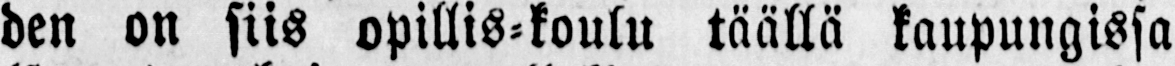den on siis opillis-koulu täällä kaupungissa
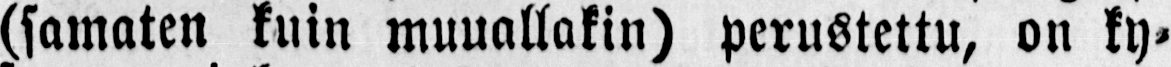(samaten kuin muuallakin) perustettu, on ky-
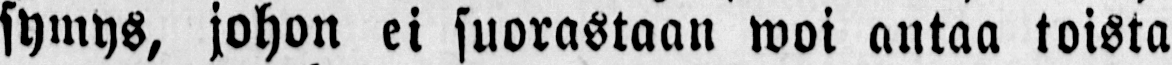symys, johon ei suorastaan woi antaa toista
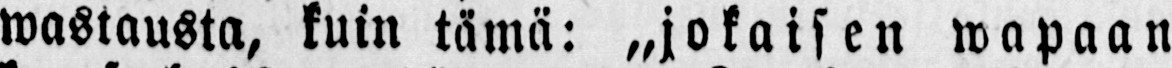mastausta, kuin tämä: „jokaisen wapaan
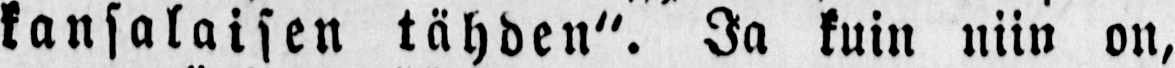kansalaisen täyden". Ja kuin niin on,
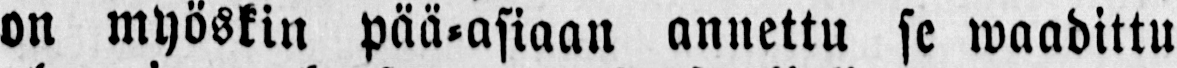on myöskin pää-asiaan annettu se waadittu
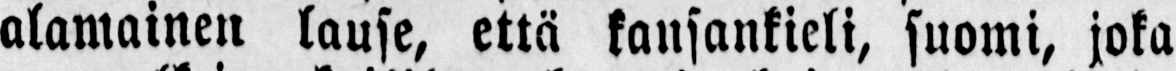alamainen lause, että kansankieli, suomi, joka
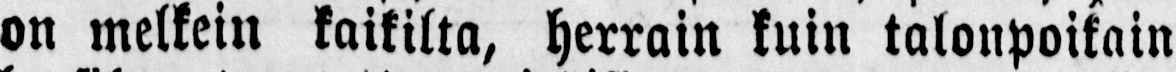on melkein kaikilta, herrain kuin talonpoikain
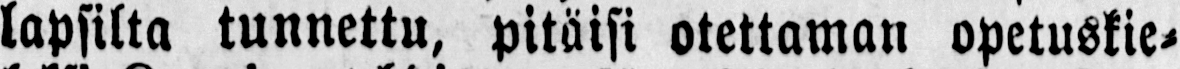lapsilta tunnettu, pitäisi otettaman opetuskie-
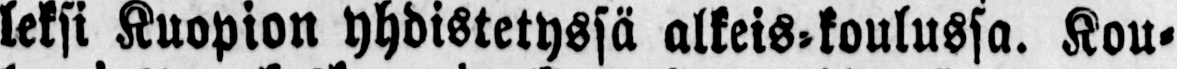leksi Kuopion yhdistetyssä alkeis-koulussa. Kou-
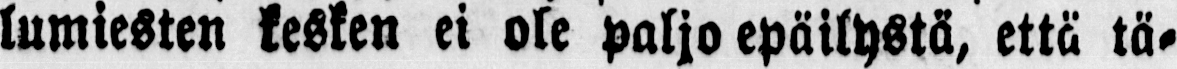lumiesten kesken ei ole paljo epäilystä, että tä-
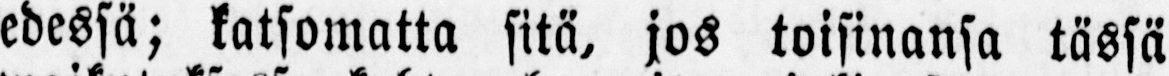edessä; katsomatta sitä, jos toisinansa tässä
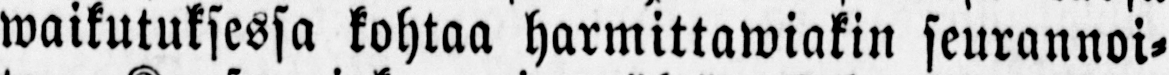waikutuksessa kohtaa harmittawiakin seurannoi-
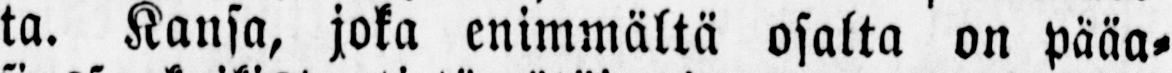ta. Kansa, joka enimmältä osalta on pääa-
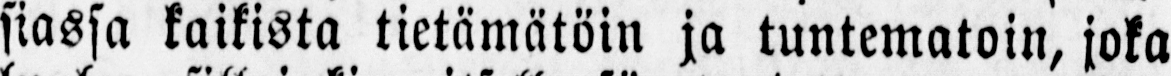siassa kaikista tietämätöin ja tuntematoin, joka
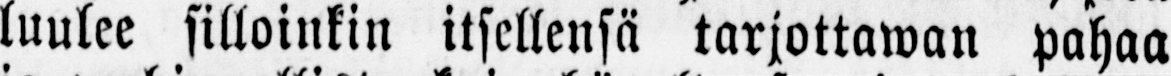luulee silloinkin itsellensä tarjottawan pahaa
